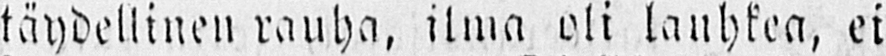täydellinen rauha, ilma oli lauhkea, ei
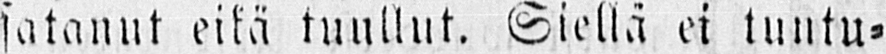satanut eikä tuullut. Siellä ei tuntu-
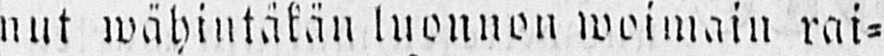nut wähintäkän luonnon woimain rai-
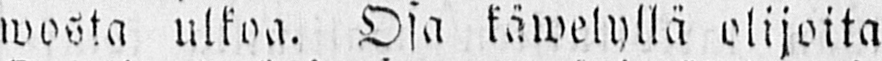wosta ulkoa. Osa käwelyllä olijoita
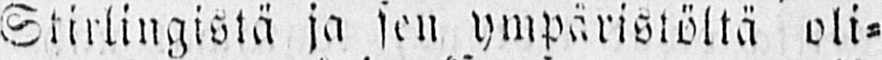Stirlingistä ja sen ympäristöltä oli-
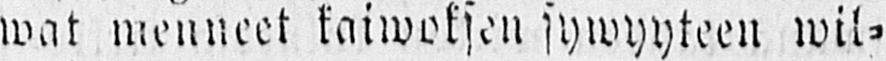wat menneet kaiwoksen sywyyteen wil-
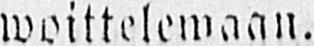woittelewaan.
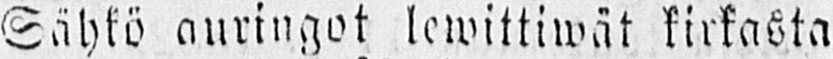Sähkö auringot lewittiwät kirkasta
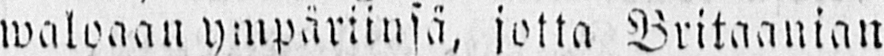waloaan ympäriinsä, jotta Britaanian
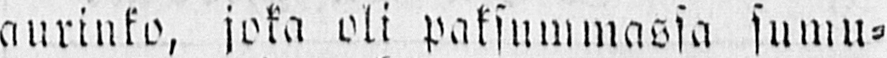aurinko, joka oli paksummassa sumu-
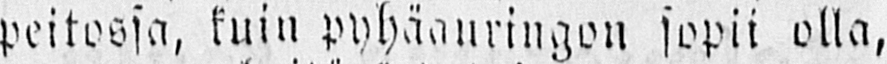peitossa, kuin pyhäauringon sopii olla,
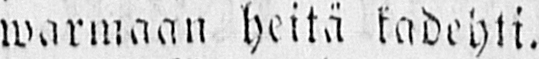warmaan heitä kadehti.
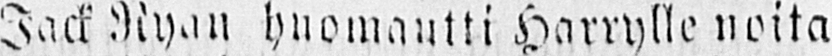Jack Nyan huomautti Harrylle noita
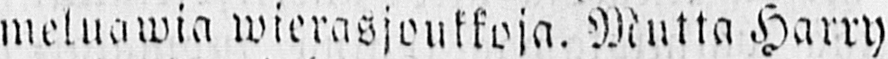meluawia wierasjoukkoja. Mutta Harry
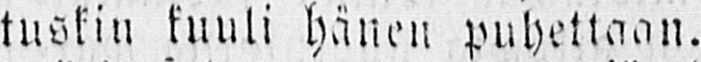tuskin kuuli hänen puhettaan.
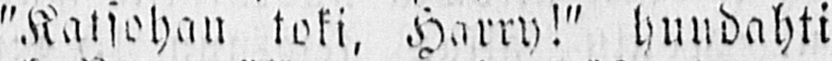"Katsohan toki, Harry!" huudahti
